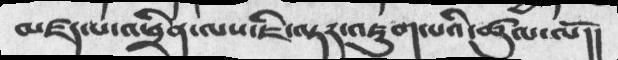མཛད་པ་འཕྲིན་ལས་ཇི་ལྟར་འཇུག་པའི་ཚུལ་ལོ།།
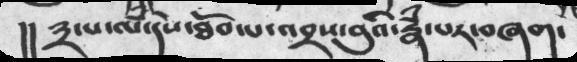།། ༣་པ་ལཾ་དེས་ཐོབ་པ་འབྲས་བུའི་རྣཾ་པར་བཞག་
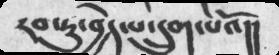རབ་ཏུ་བྱེད་པ་དྲུག་པའོ།།
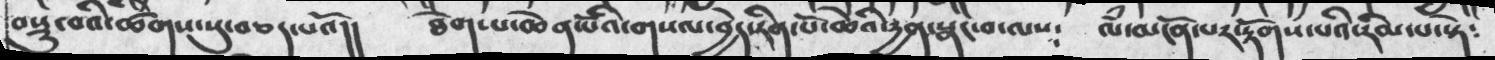བསྡུ་བའི་ཚིགས་སུ་བཅད་པའོ།།   ཐེག་པ་ཆེན་པོའི་གསལ་བྱེད་རིན་པོ་ཆེའི་དྱན་སྣང་བ་ལས༴  ལཾ་མངོན་པར་རྟོགས་པའི་རིམ་པ་སྟེ༴
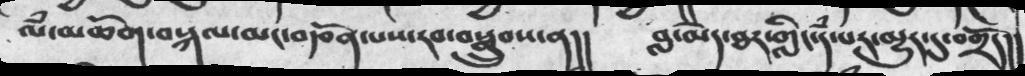ལཾ་མཆོག་བསྐལ་མང་བརྩོན་པས་རབ་བསྒྲུབས་ན།།     བླ་མེད་ཐར་གླིང་དཾ་པར་མྱུར་དུ་བགྲོད།།
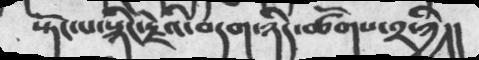སྟོང་པ་སྙིང་རྗེའི་བདག་ཉིད་ཚོགས་༢་ཀྱི།།
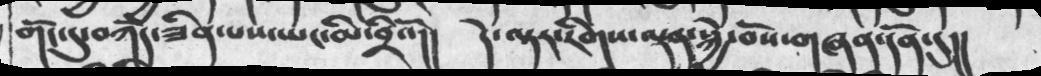གོང་དུ་བཀོད་ཟིན་པས་ཡང་མི་བྲིའོ།།  དེ་ལྟར་རིགས་ལྡན་སྐྱེ་བོས་གཞན་དོན་དུ།།
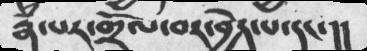རྣཾ་པར་གྲོལ་བར་བྱེད་པ་དང་།།
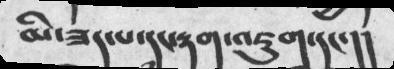མི་ཟད་པ་དང་རྟག་འཇུག་དང་།།
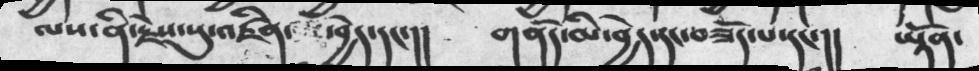ལས་ནི་རྗེས་སུ་འཛིན་    ་བྱེད་དང་།།   གནོད་མི་བྱེད་དང་བཟོད་པ་དང་།།  ཡྟོན་
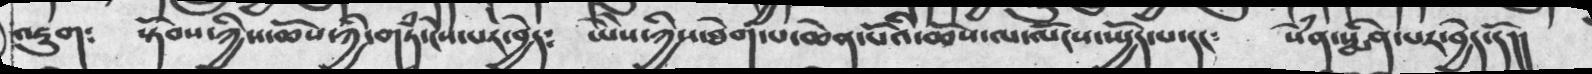འཇུག༴   སྟོབས་ཀྱིས་ཆོས་ཀྱི་གཏཾ་ངེས་པར་བྱེད༴  ཡེེས་ཀྱིས་ཐེག་པ་ཆེན་པོའི་ཆོས་ལ་ལོངས་ཡྱོད་པ་དང༴   སེཾན་སྨིན་པར་བྱེད་དོ།།
